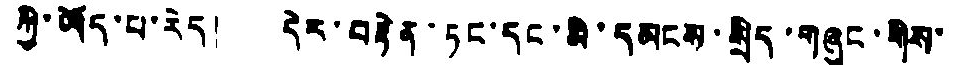ཀྱི་ཡོད་པ་རེད། དེར་བརྟེན་ཏང་དང་མི་དམངས་སྲིད་གཞུང་གིས་
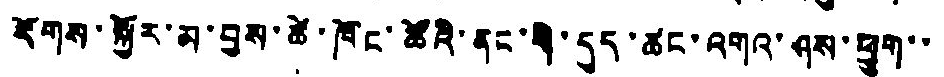རོགས་སྐྱོར་མ་བྱས་ཚེ་ཁོང་ཚོའི་ནང་གི་དུད་ཚང་འགའ་ཤས་ཕྱུག་་
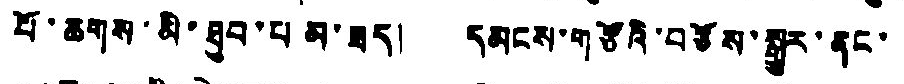པོ་ཆགས་མི་ཐུབ་པ མ་ཟད། དམངས་གཙོའི་བཅོས་སྒྱུར་ནང་
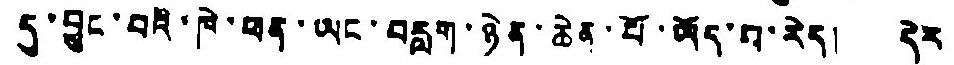དུ་བྱུང་བའི་ཁེ་ཕན་ཡང་བརླག་ཉེན་ཆེན་པོ་ཡོད་པ་རེད། དེར
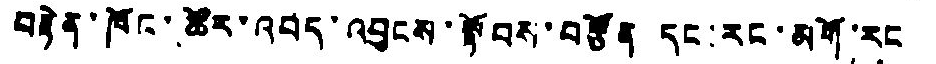བརྟེན་ཁོང་ཚོར་འབད་འབྱངས་སྟོབས་བརྩོན དང་རང་མགོ་རང
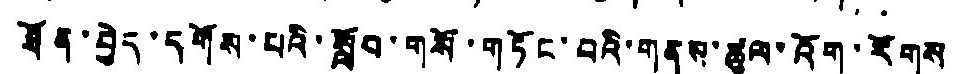ཐོན་བྱེད་དགོས་པའི་སློབ་གསོ་གཏོང་བའི་གནས་ཚུལ་འོག་རོགས
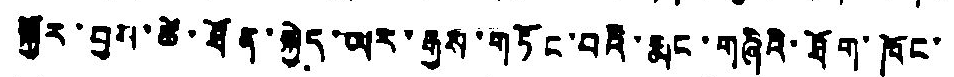སྐྱོར་བྱས་ཚེ་ཐོན་སྐྱེད་ཡར་རྒྱས་གཏོང་བའི་རྨང་གཞིའི་ཐོག་ཁོང་
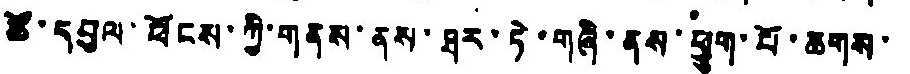ཚོ་དབུལ་ཕོངས་ཀྱི་གནས་ནས་ཐར་ཏེ་གཞི་ནས་ཕྱུག་པོ་ཆགས་
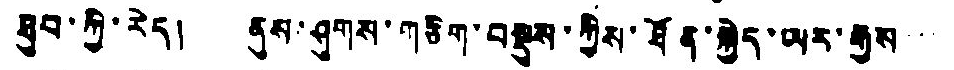ཐུབ་ཀྱི་རེད། ནུས་ཤུགས་གཅིག་བསྡུས་ཀྱིས་ཐོན་སྐྱེད་ཡར་རྒྱས་་་
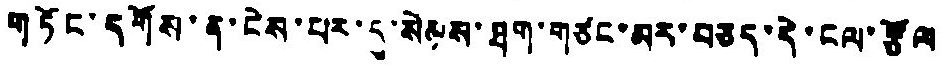གཏོང་དགོས་ན་ངེས་པར་དུ་སེམས་ཐག་གཙང་མར་བཅད་དེ་ངལ་རྩོལ
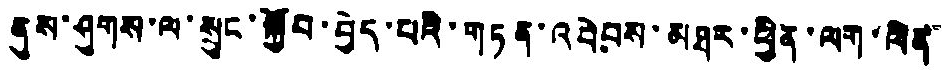ནུས་ཤུགས་ལ་སྲུང་སྐྱོབ་བྱེད་པའི་གཏན་འབེབས་མཐར་ཕྱིན་ལག་ལེན་
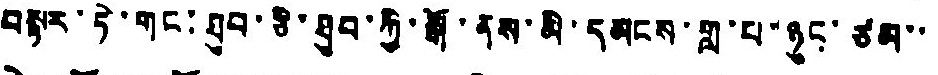བསྟར་ཏེ་གང་ཐུབ་ཅི་ཐུབ་ཀྱི་སྒོ་ནས་མི་དམངས་གླ་པ་ཉུང་ཙམ་་
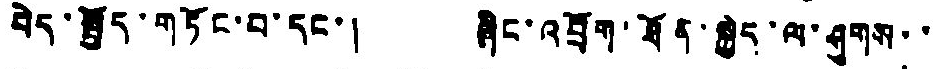བེད་སྤྱོད་གཏོང་བ་དང་། ཞིང་འབྲོག་ཐོན་སྐྱེད་ལ་ཤུགས་་
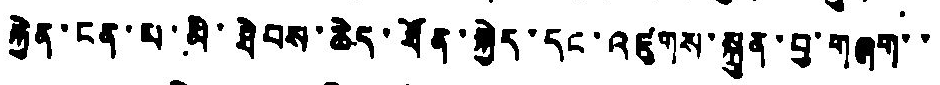རྐྱེན་ངན་པ་མི་ཐེབས་ཆེད་ཐོན་སྐྱེད་དང་འཛུགས་སྐྲུན་བྱ་གཞག་་
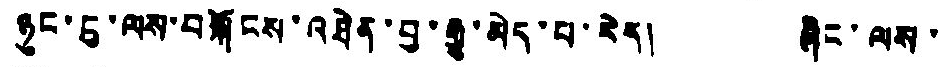ཉུང་ངུ་ལས་བསྐོངས་འཐེན་བྱ་རྒྱུ་མེད་པ་རེད། ཞིང་ལས་
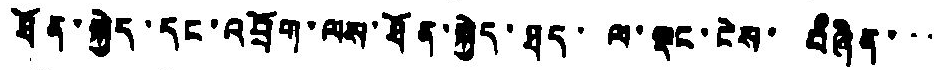ཐོན་སྐྱེད་དང་འབྲོག་ལས་ཐོན་སྐྱེད་ཐད་ ལ་ལྡང་ངེས་ བཞིན་་་
